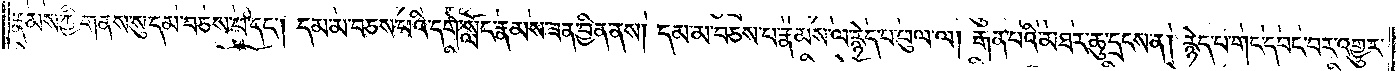རྣམས་ཀྱི་གནས་སུ་དམ་བཅས་པ་དང༌། དམ་མ་བཅས་པའི་དགེ་སློང་རྣམས་ཟན་བྱིན་ནས། དམ་མ་བཅས་རྣམས་ལ་རྙེད་པ་ཕུལ་ལ། རྒན་པའི་མཐར་ཆུ་དྲངས་ན། རྙེད་པ་གང་དབང་བར་འགྱུར་
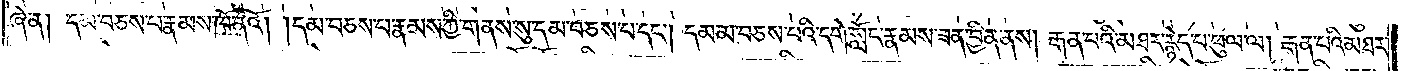ཞེ་ན། དམ་བཅས་པ་རྣམས་ཁོ་ནའོ། །དམ་བཅས་པ་རྣམས་ཀྱི་གནས་སུ་དམ་བཅས་པ་དང༌། དམ་མ་བཅས་པའི་དགེ་སློང་རྣམས་ཟན་བྱིན་ནས། རྒན་པའི་མཐར་རྙེད་པ་ཕུལ་ལ། རྒན་པའི་མཐར་
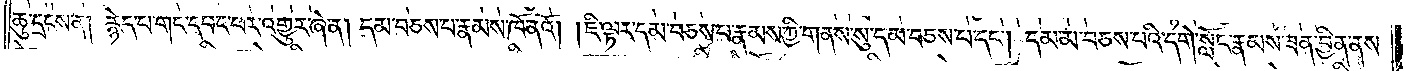ཆུ་དྲངས་ན། རྙེད་པ་གང་དབང་བར་འགྱུར་ཞེ་ན། དམ་བཅས་པ་རྣམས་ཁོ་ནའོ། །ཇི་ལྟར་དམ་བཅས་པ་རྣམས་ཀྱི་གནས་སུ་དམ་བཅས་པ་དང༌། དམ་མ་བཅས་པའི་དགེ་སློང་རྣམས་ཟན་བྱིན་ནས་
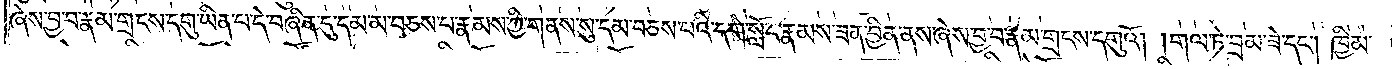ཞེས་བྱ་བ་རྣམ་གྲངས་དགུ་ཡིན་པ་དེ་བཞིན་དུ་དམ་མ་བཅས་པ་རྣམས་ཀྱི་གནས་སུ་དམ་བཅས་པའི་དགེ་སློང་རྣམས་ཟན་བྱིན་ནས་ཞེས་བྱ་བ་རྣམ་གྲངས་དགུའོ། །གལ་ཏེ་བྲམ་ཟེ་དང༌། ཁྱིམ་
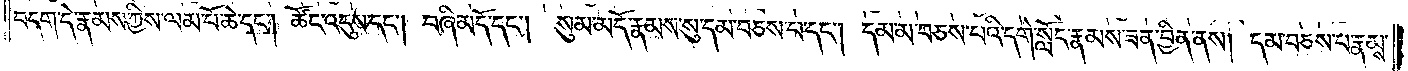བདག་དེ་རྣམས་ཀྱིས་ལམ་པོ་ཆེ་དང༌། ཚོང་འདུས་དང༌། བཞི་མདོ་དང༌། སུམ་མདོ་རྣམས་སུ་དམ་བཅས་པ་དང༌། དམ་མ་བཅས་པའི་དགེ་སློང་རྣམས་ཟན་བྱིན་ནས། དམ་བཅས་པ་རྣམས་
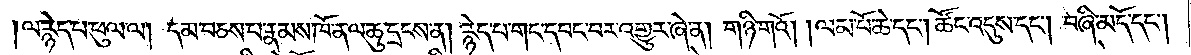།ལ་རྙེད་པ་ཕུལ་ལ། དམ་བཅས་པ་རྣམས་ཁོ་ན་ལ་ཆུ་དྲངས་ན། རྙེད་པ་གང་དབང་བར་འགྱུར་ཞེ་ན། གཉི་གའོ། །ལམ་པོ་ཆེ་དང༌། ཚོང་འདུས་དང༌། བཞི་མདོ་དང༌།
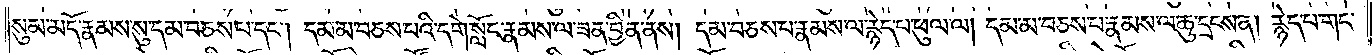སུམ་མདོ་རྣམས་སུ་དམ་བཅས་པ་དང༌། དམ་མ་བཅས་པའི་དགེ་སློང་རྣམས་ལ་ཟན་བྱིན་ནས། དམ་བཅས་པ་རྣམས་ལ་རྙེད་པ་ཕུལ་ལ། དམ་མ་བཅས་པ་རྣམས་ལ་ཆུ་དྲངས་ན། རྙེད་པ་གང་
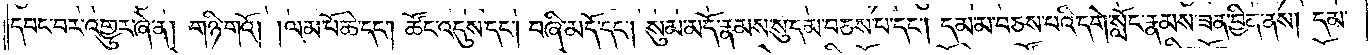དབང་བར་འགྱུར་ཞེ་ན། གཉི་གའོ། །ལམ་པོ་ཆེ་དང༌། ཚོང་འདུས་དང༌། བཞི་མདོ་དང༌། སུམ་མདོ་རྣམས་སུ་དམ་བཅས་པ་དང༌། དམ་མ་བཅས་པའི་དགེ་སློང་རྣམས་ཟན་བྱིན་ནས། དམ་
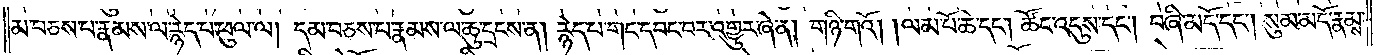མ་བཅས་པ་རྣམས་ལ་རྙེད་པ་ཕུལ་ལ། དམ་བཅས་པ་རྣམས་ལ་ཆུ་དྲངས་ན། རྙེད་པ་གང་དབང་བར་འགྱུར་ཞེ་ན། གཉི་གའོ། །ལམ་པོ་ཆེ་དང༌། ཚོང་འདུས་དང༌། བཞི་མདོ་དང༌། སུམ་མདོ་རྣམས་
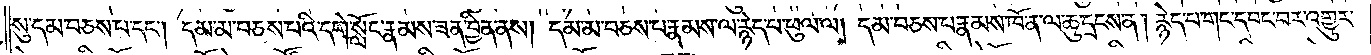སུ་དམ་བཅས་པ་དང༌། དམ་མ་བཅས་པའི་དགེ་སློང་རྣམས་ཟན་བྱིན་ནས། དམ་མ་བཅས་པ་རྣམས་ལ་རྙེད་པ་ཕུལ་ལ། དམ་བཅས་པ་རྣམས་ཁོ་ན་ལ་ཆུ་དྲངས་ན། རྙེད་པ་གང་དབང་བར་འགྱུར་
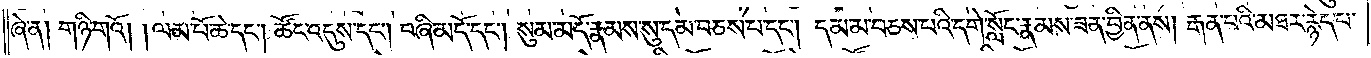ཞེ་ན། གཉི་གའོ། །ལམ་པོ་ཆེ་དང༌། ཚོང་འདུས་དང༌། བཞི་མདོ་དང༌། སུམ་མདོ་རྣམས་སུ་དམ་བཅས་པ་དང༌། དམ་མ་བཅས་པའི་དགེ་སློང་རྣམས་ཟན་བྱིན་ནས། རྒན་པའི་མཐར་རྙེད་པ་
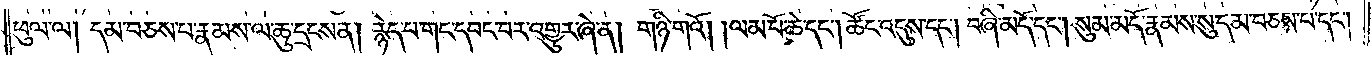ཕུལ་ལ། དམ་བཅས་པ་རྣམས་ལ་ཆུ་དྲངས་ན། རྙེད་པ་གང་དབང་བར་འགྱུར་ཞེ་ན། གཉི་གའོ། །ལམ་པོ་ཆེ་དང༌། ཚོང་འདུས་དང༌། བཞི་མདོ་དང༌། སུམ་མདོ་རྣམས་སུ་དམ་བཅས་པ་དང༌།
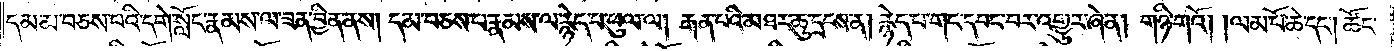དམ་མ་བཅས་པའི་དགེ་སློང་རྣམས་ལ་ཟན་བྱིན་ནས། དམ་བཅས་པ་རྣམས་ལ་རྙེད་པ་ཕུལ་ལ། རྒན་པའི་མཐར་ཆུ་དྲངས་ན། རྙེད་པ་གང་དབང་བར་འགྱུར་ཞེ་ན། གཉི་གའོ། །ལམ་པོ་ཆེ་དང༌། ཚོང་
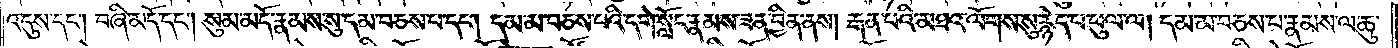འདུས་དང༌། བཞི་མདོ་དང༌། སུམ་མདོ་རྣམས་སུ་དམ་བཅས་པ་དང༌། དམ་མ་བཅས་པའི་དགེ་སློང་རྣམས་ཟན་བྱིན་ནས། རྒན་པའི་མཐའ་ལོགས་སུ་རྙེད་པ་ཕུལ་ལ། དམ་མ་བཅས་པ་རྣམས་ལ་ཆུ་
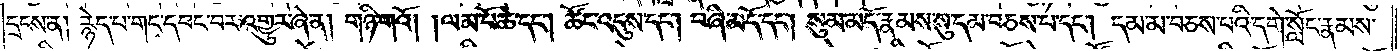དྲངས་ན། རྙེད་པ་གང་དབང་བར་འགྱུར་ཞེ་ན། གཉི་གའོ། །ལམ་པོ་ཆེ་དང༌། ཚོང་འདུས་དང༌། བཞི་མདོ་དང༌། སུམ་མདོ་རྣམས་སུ་དམ་བཅས་པ་དང༌། དམ་མ་བཅས་པའི་དགེ་སློང་རྣམས་
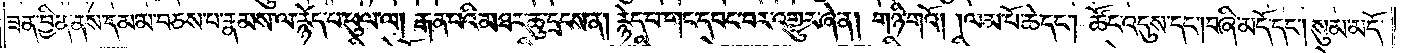ཟན་བྱིན་ནས་དམ་མ་བཅས་པ་རྣམས་ལ་རྙེད་པ་ཕུལ་ལ། རྒན་པའི་མཐར་ཆུ་དྲངས་ན། རྙེད་པ་གང་དབང་བར་འགྱུར་ཞེ་ན། གཉི་གའོ། །ལམ་པོ་ཆེ་དང༌། ཚོང་འདུས་དང༌། བཞི་མདོ་དང༌། སུམ་མདོ་
